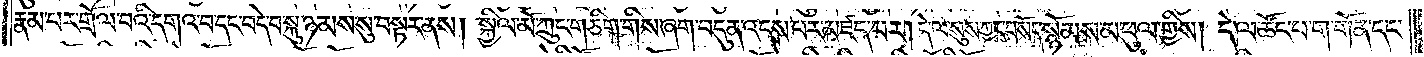རྣམ་པར་གྲོལ་བའི་དགའ་བ་དང་བེ་བ་སྐུ་ཉམས་སུ་བསྟར་ནས། སྐྱིལ་མོ་ཀྲུང་གཅིག་གིས་ཞག་བདུན་འདས་པར་མཛད་པར། དེ་ལ་སུས་ཀྱང་བསོད་སྙོམས་མ་ཕུལ་གྱིས། དེ་ལ་ཚོང་པ་ག་གོན་དང་
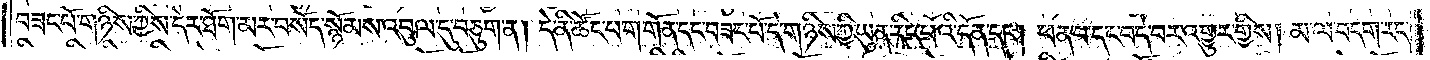བཟང་པོ་གཉིས་ཀྱིས་དེར་ཐོག་མར་བསོད་སྙོམས་འབུལ་དུ་བཅུག་ན། དེ་ནི་ཚོང་པ་ག་གོན་དང་བཟང་པོ་དེ་གཉིས་ཀྱི་ཡུན་རིང་པོའི་དོན་དང༌། ཕན་པ་དང་བདེ་བར་འགྱུར་གྱིས། མ་ལ་བདག་རང་
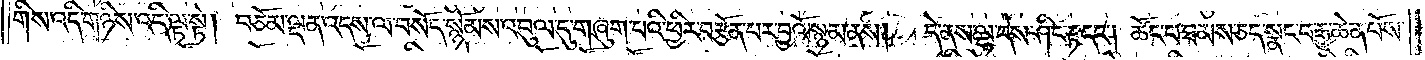གིས་འདི་གཉིས་འདི་ལྟ་སྟེ། བཅོམ་ལྡན་འདས་ལ་བསོད་སྙོམས་འབུལ་དུ་གཞུག་པའི་ཕྱིར་བརྩོན་པར་བྱའོ་སྙམ་ནས། དེ་ནས་ལྷ་དེས་ཤིང་རྟ་དང༌། ཚོང་པ་ཐམས་ཅད་སྣང་བ་རྒྱ་ཆེན་པོས་
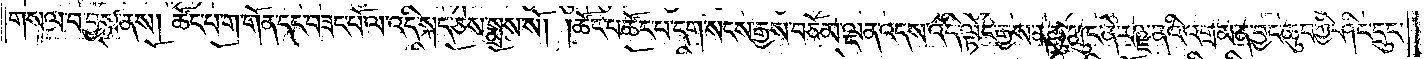གསལ་བ་བྱས་ནས། ཚོང་པ་ག་གོན་དང་བཟང་པོ་ལ་འདི་སྐད་ཅེས་སྨྲས་སོ། །ཚོང་པ་ཚོང་པ་དག་སངས་རྒྱས་བཅོམ་ལྡན་འདས་འདི་ལྟེང་རྒྱས་ན་ཆུ་ཀླུང་ནེ་རཉྫ་ནའི་འགྲམ་ན་བྱང་ཆུབ་ཀྱི་ཤིང་དྲུང་
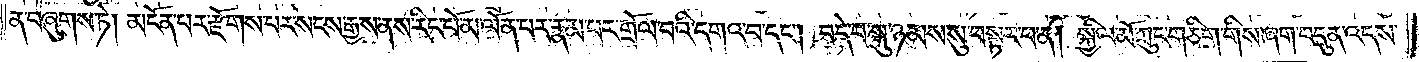ན་བཞུགས་ཏེ། མངོན་པར་རྫོགས་པར་སངས་རྒྱས་ནས་རིང་པོ་མ་ལོན་པར་རྣམ་པར་གྲོལ་བའི་དགའ་བ་དང༌། བདེ་བ་སྐུ་ཉམས་སུ་བསྟར་བ་ན། སྐྱིལ་མོ་ཀྲུང་གཅིག་གིས་ཞག་བདུན་འདས་
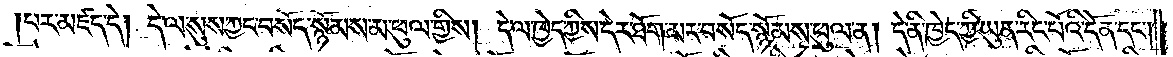པར་མཛད་དེ། དེ་ལ་སུས་ཀྱང་བསོད་སྙོམས་མ་ཕུལ་གྱིས། དེ་ལ་ཁྱེད་ཀྱིས་དེར་ཐོག་མར་བསོད་སྙོམས་ཕུལ་ན། དེ་ནི་ཁྱེད་ཀྱི་ཡུན་རིང་པོའི་དོན་དང༌།
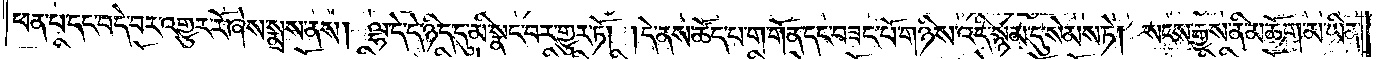ཕན་པ་དང་བདེ་པར་འགྱུར་རོ་ཞེས་སྨྲས་ནས། ལྷ་དེ་དེ་ཉིད་དུ་མི་སྣང་བར་གྱུར་ཏོ། །དེ་ནས་ཚོད་པ་ག་གོན་དང་བཟང་པོ་གཉིས་འདི་སྙམ་དུ་སེམས་ཏེ། སངས་རྒྱས་ནི་མཆོག་མ་ཡིན་
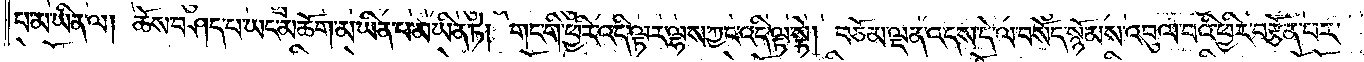པ་མ་ཡིན་ལ། ཆོས་བཤད་པ་ཡང་མཆོག་མ་ཡིན་པ་མ་ཡིན་ཏེ། གང་གི་ཕྱིར་འདི་ལྟར་ལྷས་ཀྱང་འདི་ལྟ་སྟེ། བཅོམ་ལྡན་འདས་དེ་ལ་བསོད་སྙོམས་འབུལ་བའི་ཕྱིར་བརྩོན་པར་
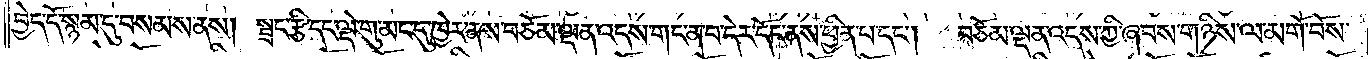བྱེད་དོ་སྙམ་དུ་བསམས་ནས། སྦྲང་རྩི་དང་ལྡེ་གུ་མང་དུ་ཁྱེར་ནས་བཅོམ་ལྡན་འདས་གང་ན་བ་དེར་དོང་ནས་ཕྱིན་པ་དང༌། བཅོམ་ལྡན་འདས་ཀྱི་ཞབས་གཉིས་ལ་མགོ་བོས་
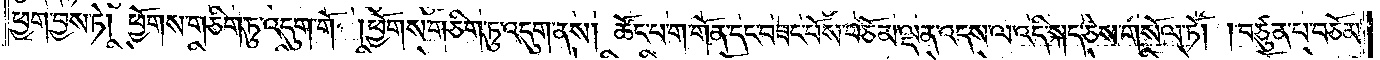ཕྱག་བྱས་ཏེ། ཕྱོགས་གཅིག་ཏུ་འདུག་གོ །ཕྱོགས་གཅིག་ཏུ་འདུག་ནས། ཚོང་པ་ག་གོན་དང་བཟང་པོས་བཅོམ་ལྡན་འདས་ལ་འདི་སྐད་ཅེས་གསོལ་ཏོ། །བཙུན་པ་བཅོམ་
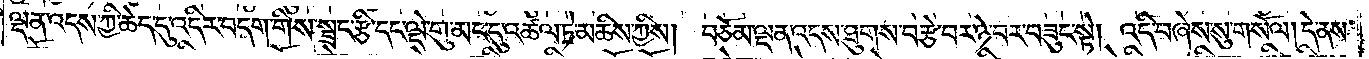ལྡན་འདས་ཀྱི་ཆེད་དུ་འདིར་བདག་གིས་སྦྲང་རྩི་དང་ལྡེ་གུ་མང་དུ་འཚལ་ཏེ་མཆིས་ཀྱིས། བཅོམ་ལྡན་འདས་ཐུགས་བརྩེ་བར་ཉེ་བར་བཟུང་སྟེ། འདི་བཞེས་སུ་གསོལ། དེ་ནས་
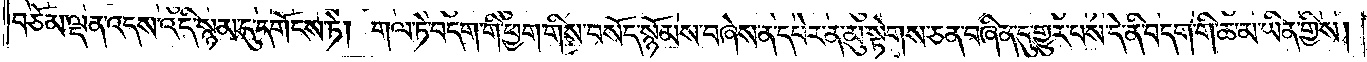བཅོམ་ལྡན་འདས་འདི་སྙམ་དུ་དགོངས་ཏེ། གལ་ཏེ་བདག་གི་ཕྱག་གིས་བསོད་སྙོམས་བཞེས་ན་དཔེར་ན་མུ་སྟེགས་ཅན་བཞིན་དུ་གྱུར་པས་དེ་ནི་བདག་གི་ཆ་མ་ཡིན་གྱིས།
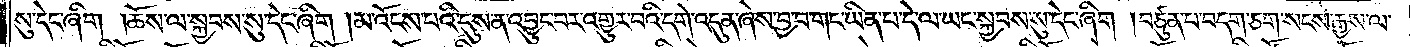སུ་དེང་ཞིག །ཆོས་ལ་སྐྱབས་སུ་དེང་ཞིག །མ་འོངས་པའི་དུས་ན་འབྱུང་བར་འགྱུར་བའི་དགེ་འདུན་ཞེས་བྱ་བ་གང་ཡིན་པ་དེ་ལ་ཡང་སྐྱབས་སུ་དེང་ཞིག །བཙུན་པ་བདག་ཅག་སངས་རྒྱས་ལ་
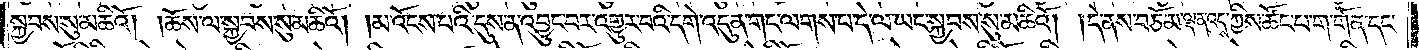སྐྱབས་སུ་མཆིའོ། །ཆོས་ལ་སྐྱབས་སུ་མཆིའོ། །མ་འོངས་པའི་དུས་ན་འབྱུང་བར་འགྱུར་པའི་དགེ་འདུན་གང་ལགས་པ་དེ་ལ་ཡང་སྐྱབས་སུ་མཆིའོ། །དེ་ནས་བཅོམ་ལྡན་འདས་ཀྱིས་ཚོང་པ་ག་གོན་དང་
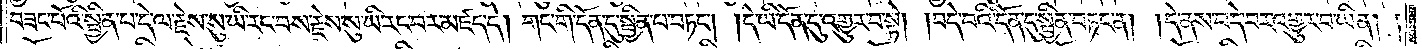བཟང་པོའི་སྦྱིན་པ་དེ་ལ་རྗེས་སུ་ཡི་རང་བས་རྗེས་སུ་ཡི་རང་བས་རྗེས་སུ་ཡི་རང་བར་མཛད་དེ། གང་གི་དོན་དུ་སྦྱིན་པ་བཏང༌། །དེ་ཡི་དོན་དུ་འགྱུར་པ་སྟེ། །བདེ་བའི་དོན་དུ་སྦྱིན་བཏང་ན། །དེ་ནས་བདེ་བར་འགྱུར་པ་ཡིན། །
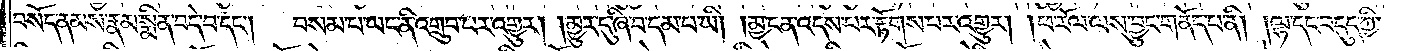བསོད་ནམས་རྣམ་སྨིན་བདེ་བ་དང༌། བསམ་པ་ཡང་ནི་འགྲུབ་པར་འགྱུར། །མྱུར་དུ་ཞི་བ་དམ་པ་ཡི། །མྱ་ངན་འདས་པར་རྟོགས་པར་འགྱུར། །ཕ་རོལ་ལས་བྱུང་གནོད་པ་ནི། །ལྷ་དང་བདུད་ཀྱི་
